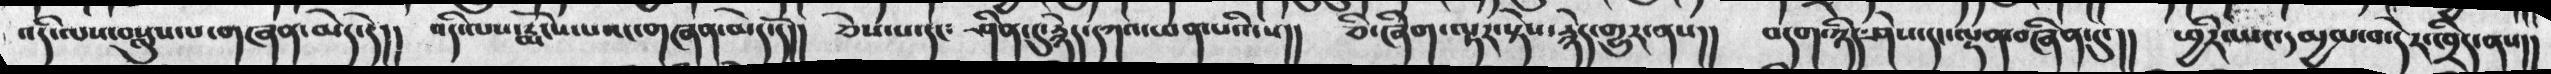འདི་ལས་བསླུས་པ་གཞན་མེད་དེ།། འདི་ལས་རྨོངས་པའང་གཞན་མེད་དེ།། ཅེས་པ་དང༴ ཤིན་དུ་རྙེད་དཀའ་ཕན་པའི་ས།། ཅི་ཞིག་ལྟར་སྟེས་རྙེད་གྱུར་ནས།། བདག་ཉིད་ཤེས་དང་ལྡན་བཞིན་དུ་།། ཕྱིར་སྱང་དམྱལ་བ་དེར་ཁྲིད་ནས།།
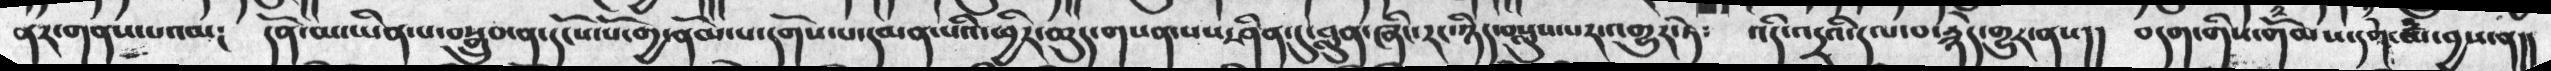ནར་གནས་པའམ༴ དོན་མ་ཡིན་པ་བསྒྲུབ་ན་དངོས་པོ་གྱ་ནོམ་པ་དགོས་པ་དམན་པའི་ཕྱིར་ཆུད་གསན་པས་ཤིན་དུ་བླུན་ཞིང་རང་ཉིད་བསླུས་པར་འགྱུར་ཏེ༴ འདི་འདྲའི་དལ་བ་རྙེད་གྱུར་ནས།། བདག་གིས་གོམས་དགེ་མཾ་བྱས་ན།།
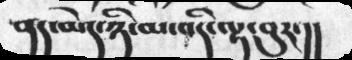ནད་མེད་ཉི་མ་འདི་ལྟ་བུར་།།
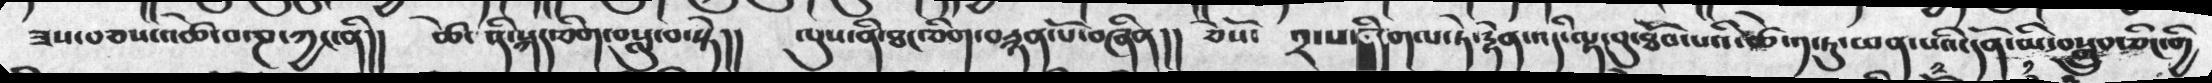ཟས་བཅས་འཚེ་བ་ཎ་ཀྱང་ནི།། ཚེ་ནི་སྐད་ཅིག་བསླུ་བ་སྟེ།། ལུས་ནི་ཐང་ཅིག་བརྙན་པོ་བཞིན།། ཅེསོ་ ༢་པ་ནི་གལ་ཏེ་རྟེན་འདི་ལྟ་བུ་ཐོབ་པའི་ཚེ་༡་ཏུ་ཕན་པའི་དོན་མི་བསྒྲུབ་ཅིང་གྱི
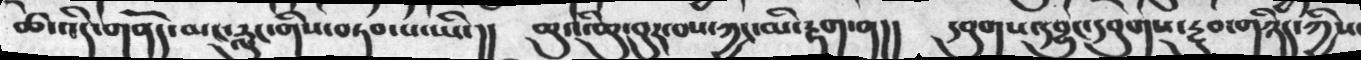ཚེ་འདི་གནོད་མང་རླུང་གིས་བཏབ་པ་ཡི་།། ཆུའི་ཆུ་བུར་བས་ཀྱང་མི་རྟག་ན།། དབུགས་དབྱུང་དབུགས་རྔུབ་གཉིད་ཀྱིས་
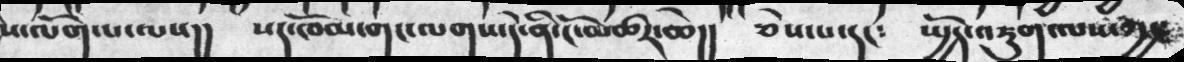ས་ལོག་པ་ལས།། སད་ཁོམ་གང་ལགས་དེ་ནི་ངོ་མཚར་ཆེ།། ཅེས་པ་དང༴ སྤྱོད་འཇུག་ལས་ཀྱང་
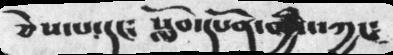ཅེས་པ་དང༴  སློབ་དཔོན་གྱིས་ཀྱང༴
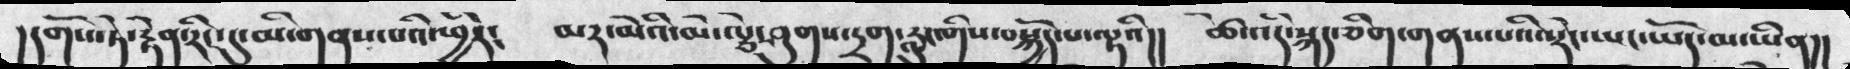།དགོས་ཏེ་རྟེན་རིང་དུ་མི་གནས་པའི་ཕྱིར༴ མར་མེའི་མེ་ལྕེ་ཤུགས་དྲག་རླུང་གིས་བསྐྱོད་པ་ལྟའི།། ཚེ་འདི་སྐད་ཅིག་གནས་པའི་སྟེང་ཡང་ཡོད་མ་ཡིན།།
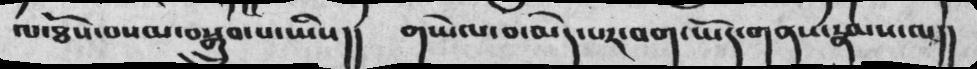ལ་ཐོས་བསམ་བསྒྲུབ་པ་ཡིས།། གཡེལ་བ་མེད་པར་བག་ཡོད་གནས་རྣམས་ལ།།
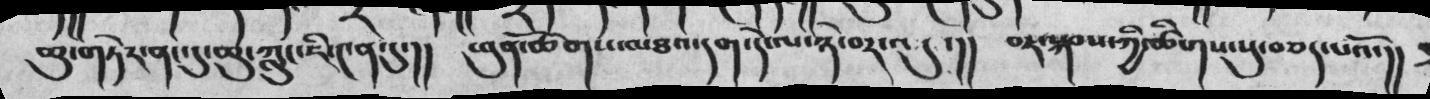ཆུ་གཏེར་ནང་དུ་ཆུ་ཀླུང་ཇི་༤ན་དུ་།། ཕུན་ཚོགས་མཐའ་དག་དེ་ལ་ཉེ་བར་འདུ་།། བར་སྐབས་ཚིགས་སུ་བཅད་པའོ་།།
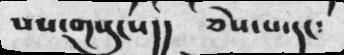པས་གསུངས།། ཅེས་པ་དང༴
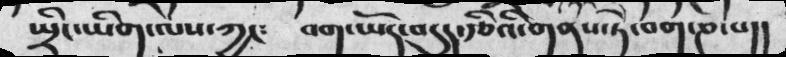སྤྲིང་ཡིག་ལས་ཀྱང༴ བག་ཡོད་བདུད་རྩིའི་གནས་ཏེ་བག་ཎ་པ།།
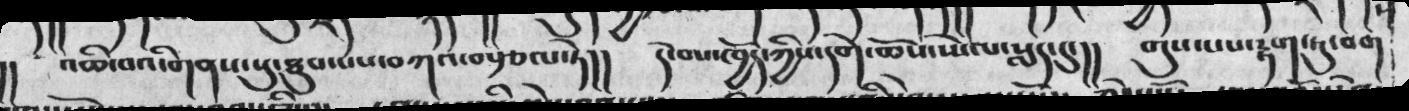།། འཆི་བའི་གནས་སུ་ཐུབ་པས་བཀའ་བསྩལ་ཏེ།།  དེ་བས་ཁྱོད་ཀྱིས་དགེ་ཆོས་སྤེལ་སླད་དུ་།།  གུས་པས་རྟག་ཏུ་བག
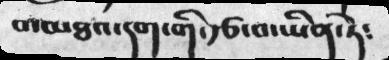བ་མཐའ་དག་གི་རྩ་བ་ཡིན་ཏེ༴
